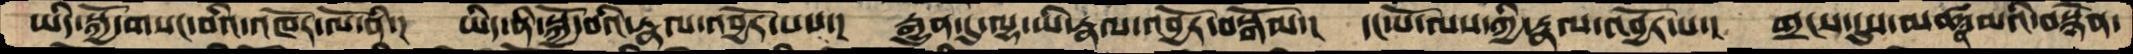ཡིད་སྐྱོ་གསང་བའི་འཁོར་ལོ་ནི་། ཡིད་ནི་སྐྱོ་བའི་རྣལ་འབྱོར་པས་། རྒྱུན་དུ་ལྷ་ཡི་རྣལ་འབྱོར་བསྒོམ་། དང་པོ་ལས་ཀྱི་རྣལ་འབྱོར་པ་། གྲངས་དུས་མཚན་མའི་བསྙེན་
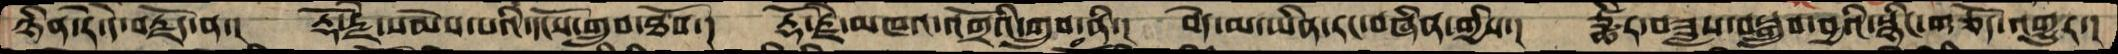ཉིན་རེ་དེ་བརྗོད་ན་། རྡོ་རྗེ་སེམས་པའི་དངོས་གྲུབ་ཐོབ་། རྡོ་རྗེ་མཁའ་འགྲོའི་གྲུབ་ནི་། བདེ་མ་ཡིན་རང་བཞིན་གྱིས་། ཙྪིར་བཟླས་བསྒྲུབ་བྱའི་སྙིང་གཅོད་འགྱུར་།
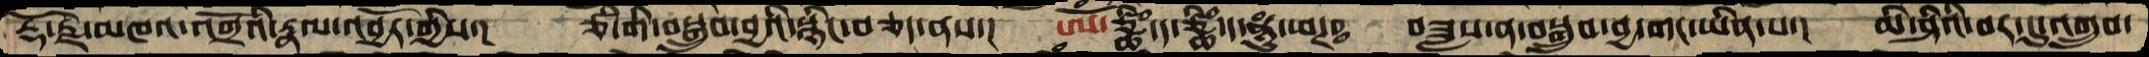རྡོ་རྗེ་མཁའ་འགྲོའི་རྣལ་འབྱོར་ཀྱིས་། ཙི་གི་བསྒྲུབ་བྱའི་སྙིང་བཅད་ནས་། ཨོཾ་ཙྪིཾ་ད་ཙྪིཾ་ད་ཧཱུཾ་ཕཊཿ བཟླས་ན་བསྒྲུབ་བྱ་གང་ཡིན་པ་། མི་ཤིའི་བར་དུ་འགྲུབ་
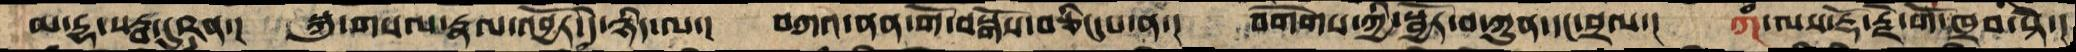མ་དྷ་སརྦ་དུཥྚན་། སྐུ་གསལ་རྣལ་འབྱོར་དེ་ཉིད་ལ་། བཀའ་ནན་གོ་བསྒོས་བཅིངས་པ་ན་། བགེགས་ཀྱི་སྦྱོར་བ་ཀུན་དང་བྲལ་། ཀཾ་ལས་རྡོ་རྗེ་གོ་ཁྲབ་སྟེ་།
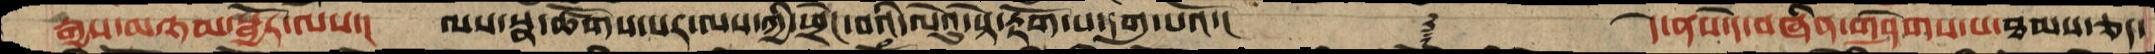རྒྱས་མཉམ་སྦྱོར་ལས་། ལས་སྣ་ཚོགས་པར་ལས་ཀྱི་ཕྲེང་བའི་ལེའུ་སྟེ་རྟོག་པ་དགུ་པའོ་།   ༈  དེ་ནས་དེ་བཞིན་གཤེགས་པ་ཐམས་ཅད་
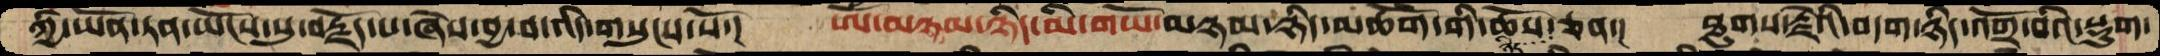ཀྱི་ཡོན་ཏན་ཡོངས་སུ་བརྗོད་པ་ཞེས་བྱ་བ་འདི་གསུངས་སོ་། ཨོཾ་མཉམ་ཉིད་མི་གཡོ་མཉམ་ཉིད་མཆོག་གི་ཆོས་ཉིད་ཅན་། ཐུགས་རྗེའི་བདག་ཉིད་འགྲོ་བའི་སྡུག་
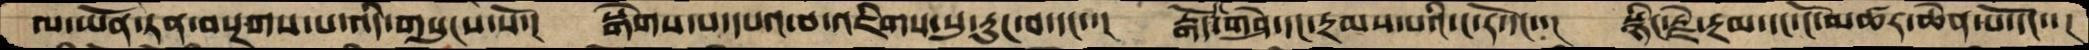ལ་ཡོན་ཏན་བསྔགས་པ་འདི་གསུངས་སོ་། སྒེགས་པ་དཔའ་བ་འཇིགས་སུ་རུང་བ་དང་་། རྒོད་དང་གཤེ་དང་རྔམས་པའི་ང་རོ་དང་་། སྙིང་རྗེ་རྔམ་དང་ངོ་མཚར་ཆེན་པོ་དང་་།
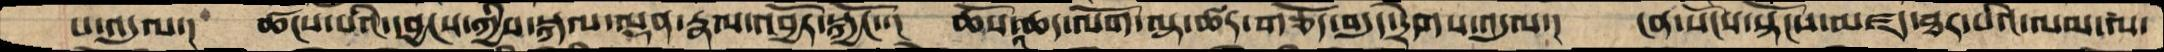པ་འདུལ་། ཚངས་པའི་དབྱངས་ཀྱིས་སྐལ་ལྡན་རྣལ་འབྱོར་སྐྱོང་་། ཆོས་འཆད་ལོག་ལྟ་ཚར་གཅོད་བདུད་དྲེགས་འདུལ་། ངན་སོངས་སྟོངས་མཛད་ཐར་པའི་ལམ་ལ་
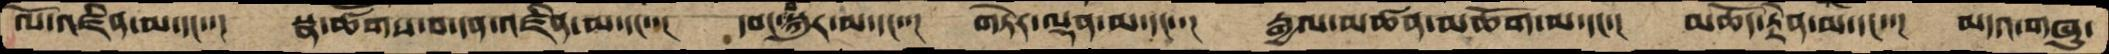ལོ་འཛིན་མ་དང་་། སྣ་ཚོགས་བ་དན་འཛིན་མ་དང་་། དབང་བསྐུར་མ་དང་་། གཏེར་ལྡན་མ་དང་་། རྒྱལ་མཚན་མཆོག་མ་དང་་། མཆོད་རྟེན་མ་དང་་། མདའ་གཞུ་
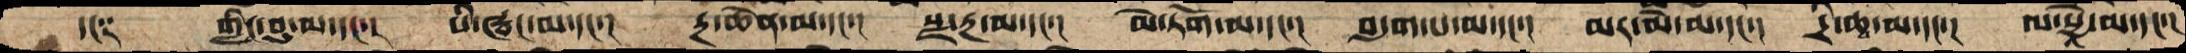དང༑ གླིང་བུ་མ་དང་་། པི་ཝང་མ་དང་་། རྔ་ཆེན་མ་དང་། སྫ་རྔ་མ་དང་་། མེ་ཏོག་མ་དང་་།  བདུག་པ་མ་དང་་། མར་མེ་མ་དང་་། དྲི་ཆབ་མ་དང་་། ལ་སྱཱེ་མ་དང་་།
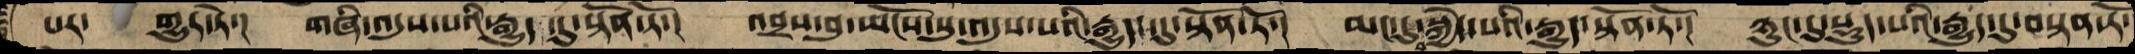པར་ གྱུར་ཏེ་། གཞི་འདུས་པའི་རྒྱུད་དུ་སྟོན་ཏོ་། འབྲས་བུ་ཡོངས་སུ་འདུས་པའི་རྒྱུད་དུ་སྟོན་ཏོ་། མང་དུ་སྐྱེད་པའི་རྒྱུད་སྟོན་ཏོ་། ཉུང་དུ་སྡུད་པའི་རྒྱུད་དུ་བསྟན་ཏོ་
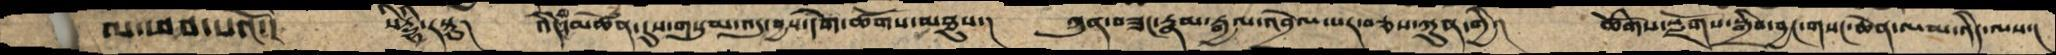ལ་ཕབ་པའི་།  སིདྡྷི་རསྟུ། འདིས་མཚོན་དུས་གསུམ་འདུ་བྱས་དགེ་ཚོགས་མཐུས་། ཀུན་བཟང་རྣམ་རྒྱལ་འབྲེལ་པར་བཅས་ཀུན་གྱི་། ཚོགས་སྫོགས་སྒྲིབ་བྱང་གསང་ཆེན་ལམ་འདི་ལས་།
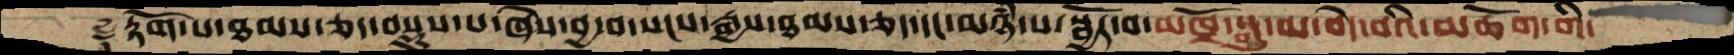༈ རྟོག་པ་ཐམས་ཅད་བསྡུས་པ་ཞེས་བྱ་བ་སངས་རྒྱས་ཐམས་ཅད་དང་མཉཾ་པ་སྦྱོར་བ་མཁྲོ་སྒྱུ་མ་བདེ་བའི་མཆོག་གི
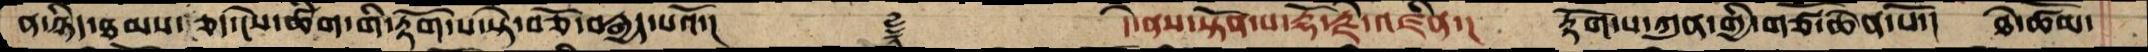ན་ཉིད་ཐམས་ཅད་ངེས་ཚིག་གི་རྟོག་པ་སྟེ་བཅོ་བརྒྱད་པའོ་།    ༈   དེ་ནས་སྟོན་པ་རྡོ་རྗེ་འཛིན་། རྟོག་པ་ཀུན་གྱི་གཙོ་ཆེན་པོ་། ཐེ་ཚོམ་
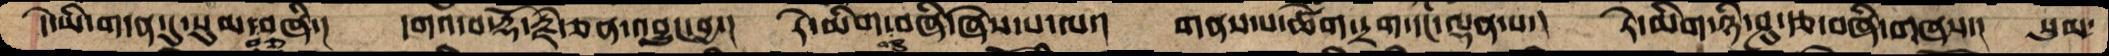དེ་ཡི་གདན་དུ་སུམ་བཅུ་བཞི་། དགའ་བ་རྡོ་རྗེ་ཅན་འབྱུང་བྱ་། རེ་མིག་བཅུ་བཞི་ཞེས་པ་ལ་། གནས་པ་ཚེག་དྲག་དང་ལྡན་པ་། རེ་མིག་ཉི་ཤུ་རྩ་བཞི་གཞས་། སུམ་
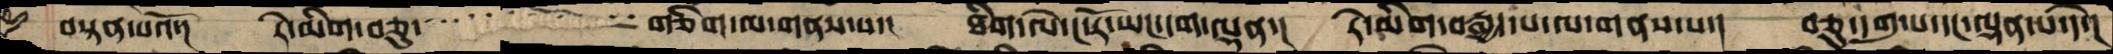བསྟན་པའོ་། རེ་མིག་བཅུ་་་་་་་་་གཅིག་ལ་གནས་པ་། ཐིག་ལེ་ང་རོ་ཡང་དག་ལྡན་། རེ་མིག་བརྒྱད་པ་ལ་གནས་པ་། བཅུ་དགུ་པ་དང་ལྡན་པ་དེ་།
